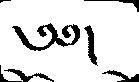༄༅།
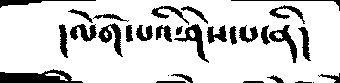།ལོག་པའི་ཤེས་པ་ནི།
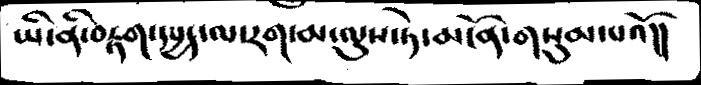ཡི་ནི་བརྟག་དཔྱད་ལ་རག་མ་ལུས་ཏེ་མངོན་གསུམ་པའོ།།
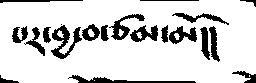པར་བྱ་བ་ཙམ་མོ།།
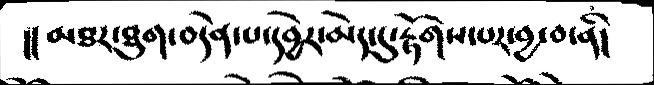།། མཐར་ཐུག་བདེན་པ་དབྱེར་མེད་དུ་རྟོགས་པར་བྱ་བ་ནི།
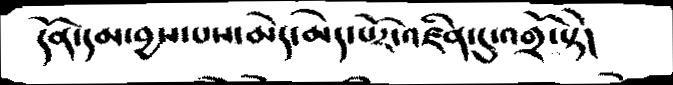དོན་དམ་བྱས་པས་མེད་མེད་པོར་འཛིན་དུ་འགྲོ་སྟེ།
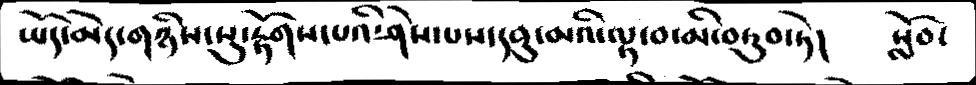ཡོད་མེད་གཉིས་སུ་རྟོགས་པའི་ཤེས་པས་དབུ་མའི་ལྟ་བ་མི་བཏུབ་ཏེ།     སློབ་
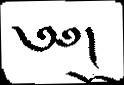༄༅།
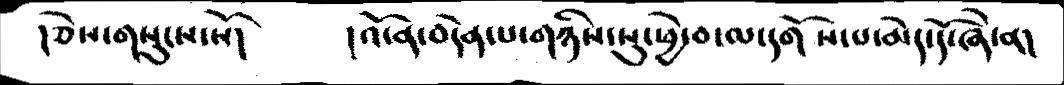།ཅེས་གསུངས་སོ།     །འོ་ན་བདེན་པ་གཉིས་སུ་ཕྱེ་བ་ལ་དགོས་པ་མེད་དོ་ཞེ་ན།
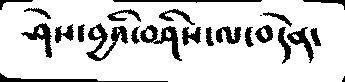ཤེས་བྱའི་བཤིས་ལ་བདེན་
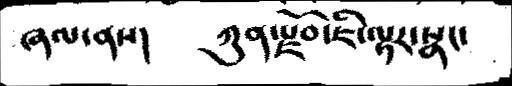ཞལ་ནས།    ཀུན་རྫོབ་ཇི་ལྟར་སྣང་
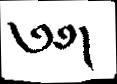༄༅།
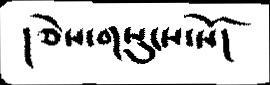།ཅེས་གསུངས་སོ།
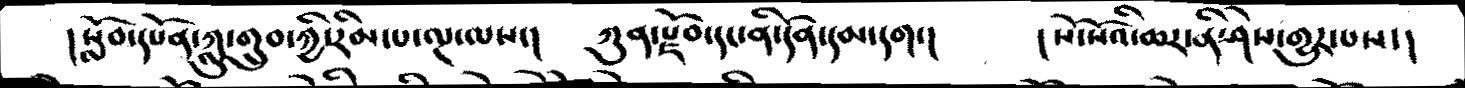།སློབ་དཔོན་ཀླུ་གྲུབ་ཀྱི་རིམ་པ་ལྔ་ལས་།  ཀུན་རྫོབ་དང་ནི་དོན་དམ་དག་།    །སོ་སོའི་ཆར་ནི་ཤེས་གྱུར་པས་།
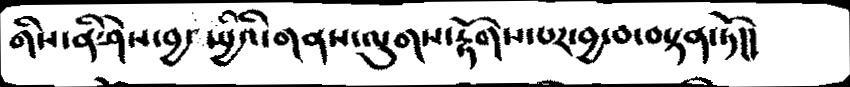གིས་ནི་ཤེས་བྱ་སྤྱིའི་གནས་ལུགས་རྟོགས་པར་བྱ་བ་བསྟན་ཏོ།།
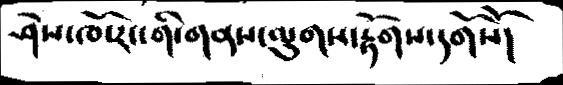ཤེས་ཁོ་རང་གི་གནས་ལུགས་རྟོགས་དགོསོ།
